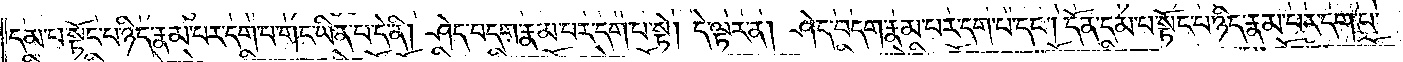དམ་པ་སྟོང་པ་ཉིད་རྣམ་པར་དག་པ་གང་ཡིན་པ་དེ་ནི། ཤེད་བདག་རྣམ་པར་དག་པ་སྟེ། དེ་ལྟར་ན། ཤེད་བདག་རྣམ་པར་དག་པ་དང༌། དོན་དམ་པ་སྟོང་པ་ཉིད་རྣམ་པར་དག་པ་
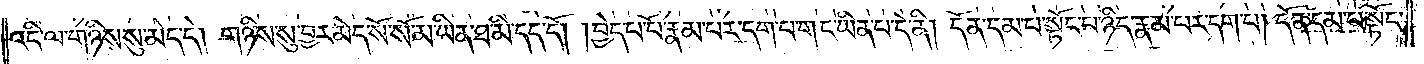འདི་ལ་གཉིས་སུ་མེད་དེ། གཉིས་སུ་བྱར་མེད་སོ་སོ་མ་ཡིན་ཐ་མི་དད་དོ། །བྱེད་པ་པོ་རྣམ་པར་དག་པ་གང་ཡིན་པ་དེ་ནི། དོན་དམ་པ་སྟོང་པ་ཉིད་རྣམ་པར་དག་པ། དོན་དམ་པ་སྟོང་
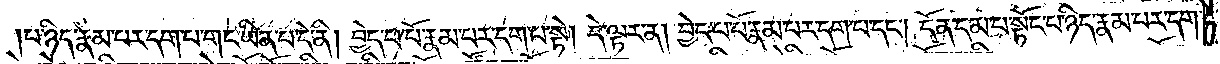པ་ཉིད་རྣམ་པར་དག་པ་གང་ཡིན་པ་དེ་ནི། བྱེད་པ་པོ་རྣམ་པར་དག་པ་སྟེ། དེ་ལྟར་ན། བྱེད་པ་པོ་རྣམ་པར་དག་པ་དང༌། དོན་དམ་པ་སྟོང་པ་ཉིད་རྣམ་པར་དག་
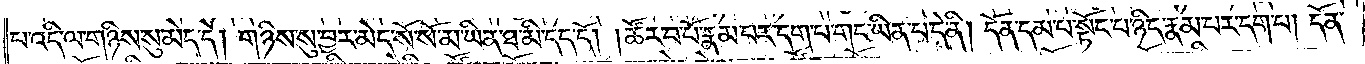པ་འདི་ལ་གཉིས་སུ་མེད་དེ། གཉིས་སུ་བྱར་མེད་སོ་སོ་མ་ཡིན་ཐ་མི་དད་དོ། །ཚོར་བ་པོ་རྣམ་པར་དག་པ་གང་ཡིན་པ་དེ་ནི། དོན་དམ་པ་སྟོང་པ་ཉིད་རྣམ་པར་དག་པ། དོན་
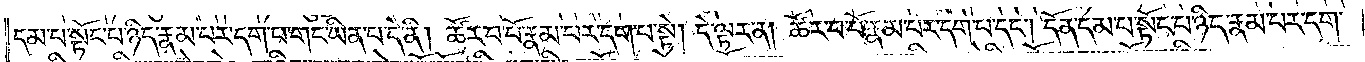དམ་པ་སྟོང་པ་ཉིད་རྣམ་པར་དག་པ་གང་ཡིན་པ་དེ་ནི། ཚོར་བ་པོ་རྣམ་པར་དག་པ་སྟེ། དེ་ལྟར་ན། ཚོར་བ་པོ་རྣམ་པར་དག་པ་དང༌། དོན་དམ་པ་སྟོང་པ་ཉིད་རྣམ་པར་དག་
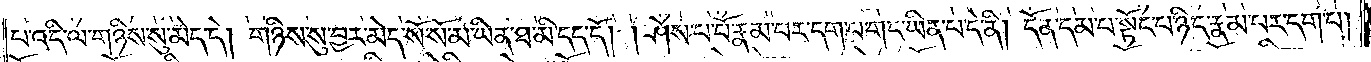པ་འདི་ལ་གཉིས་སུ་མེད་དེ། གཉིས་སུ་བྱར་མེད་སོ་སོ་མ་ཡིན་ཐ་མི་དད་དོ། །ཤེས་པ་པོ་རྣམ་པར་དག་པ་གང་ཡིན་པ་དེ་ནི། དོན་དམ་པ་སྟོང་པ་ཉིད་རྣམ་བར་དག་པ།
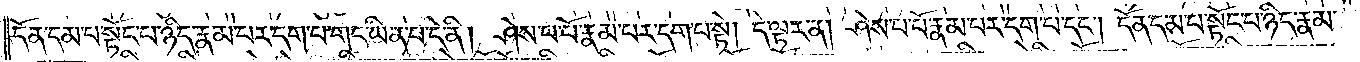དོན་དམ་པ་སྟོང་པ་ཉིད་རྣམ་པར་དག་པ་གང་ཡིན་པ་དེ་ནི། ཤེས་པ་པོ་རྣམ་པར་དག་པ་སྟེ། དེ་ལྟར་ན། ཤེས་པ་པོ་རྣམ་པར་དག་པ་དང༌། དོན་དམ་པ་སྟོང་པ་ཉིད་རྣམ་
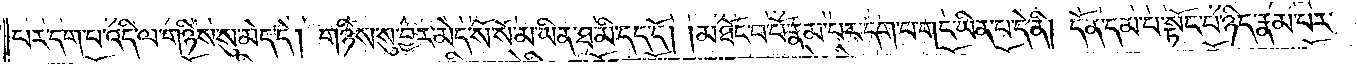པར་དག་པ་འདི་ལ་གཉིས་སུ་མེད་དེ། གཉིས་སུ་བྱར་མེད་སོ་སོ་མ་ཡིན་ཐ་མི་དད་དོ། །མཐོང་བ་པོ་རྣམ་པར་དག་པ་གང་ཡིན་པ་དེ་ནི། དོན་དམ་པ་སྟོང་པ་ཉིད་རྣམ་པར་
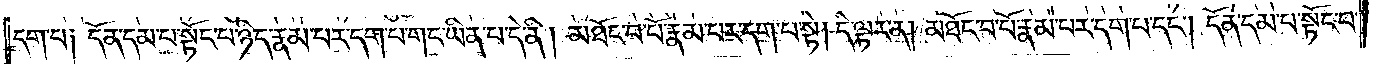དག་པ། དོན་དམ་པ་སྟོང་པ་ཉིད་རྣམ་པར་དག་པ་གང་ཡིན་པ་དེ་ནི། མཐོང་བ་པོ་རྣམ་པར་དག་པ་སྟེ། དེ་ལྟར་ན། མཐོང་བ་པོ་རྣམ་པར་དག་པ་དང༌། དོན་དམ་པ་སྟོང་པ་
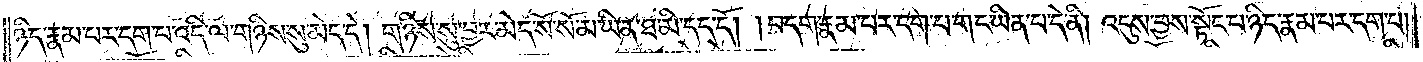ཉིད་རྣམ་པར་དག་པ་འདི་ལ་གཉིས་སུ་མེད་དེ། གཉིས་སུ་བྱར་མེད་སོ་སོ་མ་ཡིན་ཐ་མི་དད་དོ། །བདག་རྣམ་པར་དག་པ་གང་ཡིན་པ་དེ་ནི། འདུས་བྱས་སྟོང་པ་ཉིད་རྣམ་པར་དག་པ།
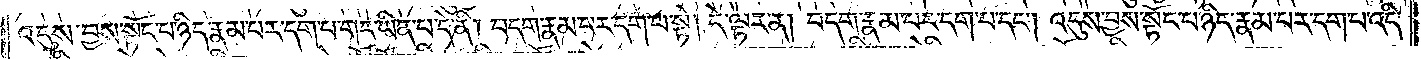འདུས་བྱས་སྟོང་པ་ཉིད་རྣམ་པར་དག་པ་གང་ཡིན་པ་དེ་ནི། བདག་རྣམ་པར་དག་པ་སྟེ། དེ་ལྟར་ན། བདག་རྣམ་པར་དག་པ་དང༌། འདུས་བྱས་སྟོང་པ་ཉིད་རྣམ་པར་དག་པ་འདི་
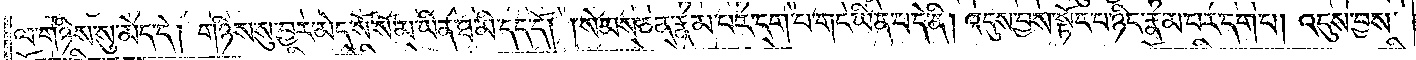ལ་གཉིས་སུ་མེད་དེ། གཉིས་སུ་བྱར་མེད་སོ་སོ་མ་ཡིན་ཐ་མི་དད་དོ། །སེམས་ཅན་རྣམ་པར་དག་པ་གང་ཡིན་པ་དེ་ནི། འདུས་བྱས་སྟོང་པ་ཉིད་རྣམ་པར་དག་པ། འདུས་བྱས་
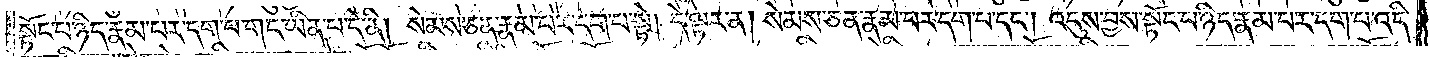སྟོང་པ་ཉིད་རྣམ་པར་དག་པ་གང་ཡིན་པ་དེ་ནི། སེམས་ཅན་རྣམ་པར་དག་པ་སྟེ། དེ་ལྟར་ན། སེམས་ཅན་རྣམ་པར་དག་པ་དང༌། འདུས་བྱས་སྟོང་པ་ཉིད་རྣམ་པར་དག་པ་འདི་
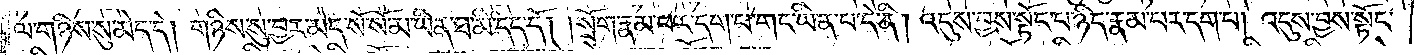ལ་གཉིས་སུ་མེད་དེ། གཉིས་སུ་བྱར་མེད་སོ་སོ་མ་ཡིན་ཐ་མི་དད་དོ། །སྲོག་རྣམ་པར་དག་པ་གང་ཡིན་པ་དེ་ནི། འདུས་བྱས་སྟོང་པ་ཉིད་རྣམ་པར་དག་པ། འདུས་བྱས་སྟོང་
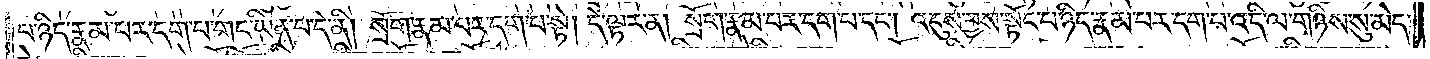པ་ཉིད་རྣམ་པར་དག་པ་གང་ཡིན་པ་དེ་ནི། སྲོག་རྣམ་པར་དག་པ་སྟེ། དེ་ལྟར་ན། སྲོག་རྣམ་པར་དག་པ་དང༌། འདུས་བྱས་སྟོང་པ་ཉིད་རྣམ་པར་དག་པ་འདི་ལ་གཉིས་སུ་མེད་
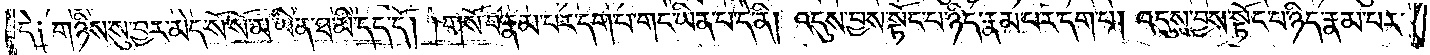དེ། གཉིས་སུ་བྱར་མེད་སོ་སོ་མ་ཡིན་ཐ་མི་དད་དོ། །གསོ་བ་རྣམ་པར་དག་པ་གང་ཡིན་པ་དེ་ནི། འདུས་བྱས་སྟོང་པ་ཉིད་རྣམ་པར་དག་པ། འདུས་བྱས་སྟོང་པ་ཉིད་རྣམ་པར་
